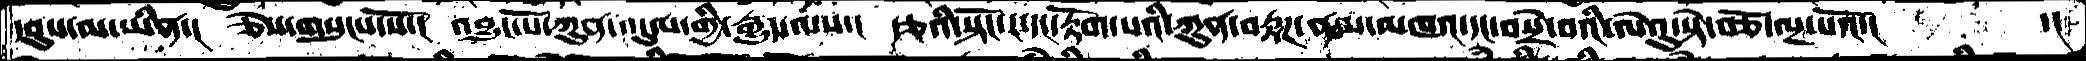དབུས་མ་ཡིན་།  ཅེས་གསུངས་སོ་།  འབྱུང་པོ་ཀུན་འདུལ་གྱི་རྒྱུད་ལས་།  རྩའི་སྟོང་ར་དང་རྟོག་པའི་ཀུན་བརྟཌ་ནམ་མཁའ་དང་བསྲེ་བའི་ལེའུ་སྟེ་བཅོ་ལྔ་པའོ་།      ་།
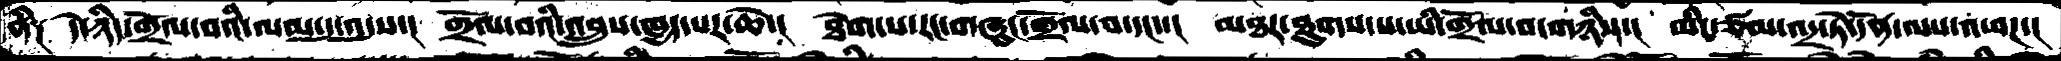ནི༑  དེ་ཉིད་གྲོལ་བའི་ལམ་དུ་འདུས་།  གྲོལ་བའི་འབྲུས་ཁྱད་པར་ཆེ་།  ཐེག་པ་རང་གཞུང་གྲོལ་བ་དང་་།  མཐར་ཐུགས་པ་ཡི་གྲོལ་བ་གཉིས་།  མིང་ཙམ་འདྲ་ཏེ་དོན་ལས་འཕཌ་།
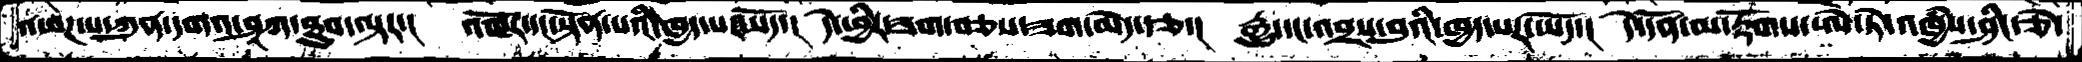འཕཌ་པ་ཀུན་དགའ་ཤཱཀ་ཐུབ་ལྟར་།  འཁོར་དང་སྟོན་པའི་ཁྱད་པར་ཡོད་།  དེ་ཕྱིར་ཟག་བཅས་ཟག་མེད་རྩ་།  རྒྱུ་དང་འབྲས་བུའི་ཁྱད་པར་ཡོད་།  དེ་དོན་མ་རྟོགས་ཨེ་ཏེ་འཁྱིས་ཤིང་ཅེ་
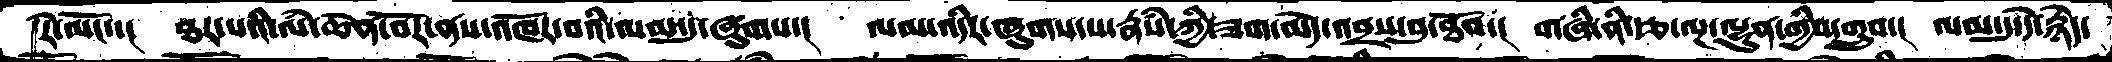རེ་མོང་་། ཐར་པའི་ལཾ་ཆེན་བོར་ནས་འཁོར་བའི་ལམ་དུ་ཞུགས་།   ལམ་འདིར་ཞུགས་པ་རྣཾས་ཀྱི་ཟག་མེད་འབྲས་བུ་ཐོབ་།  གཞི་ནི་རྩ་ལྔ་ལྷུན་གིས་གྲུབ་།  ལམ་དུ་དེ་རྙེད་
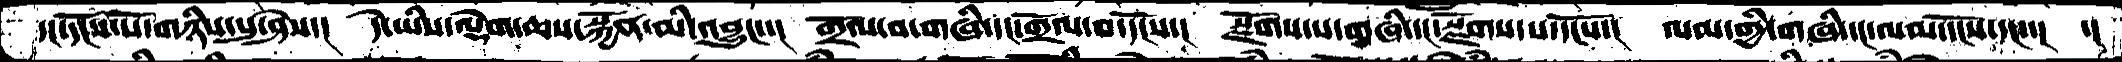དང་དངོས་པོ་གཉིས་སུ་ཤེས་།  དེ་ཡིས་ལྡེག་ཆས་སྐྱོན་མི་འབྱུང་་།  གྲོལ་བ་གཞི་དང་གྲོལ་བ་དངོས་།  སྫོགས་པ་གཞི་དང་སྫོགས་པ་དངོས་།  ལམ་གྱི་གཞི་དང་ལམ་དངོས་དང་་། ་།
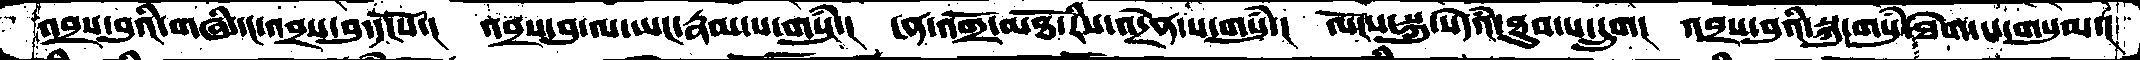འབྲས་བུའི་གཞི་དང་འབྲས་བུ་དངོས་།  འབྲས་བུ་ལ་ཡང་རྣམ་པ་གསུཾ་།  ངན་འགྲོ་མཐོ་རིས་འདྲེན་པ་གསུཾ་།  ལོངས་སྐུ་སེཾདའ་ཐུབ་པ་དྲུག།  འབྲས་བུའི་སྐུ་གསུཾ་ཐེག་པ་གསུམ་།
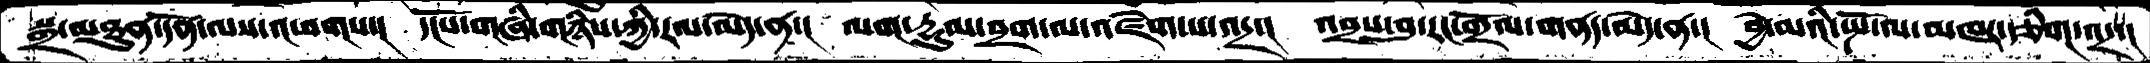སྒྲ་མཐུན་དོན་ལས་འཕགས་།  དངོས་གཞི་གཉིས་ཀྱི་རལ་མེད་ན་།  ལག་རྡུམ་བྲག་ལ་འཛེག་པ་འདྲ་།  འབྲས་བུ་རང་གྲོལ་གནད་མེད་ན་།  བྱེ་མའི་སྤོ་ལ་མཁར་རྩིག་འདྲ་།
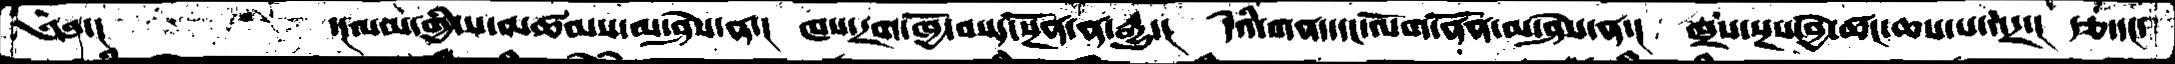༄༅་།     ་།ལམ་གྱི་ས་མཚཾས་མ་ཤེས་ན་།  ཁས་དྲག་ཁྱོ་བསད་སྔོན་ན་རྒྱུ་།  དེའི་གནད་དང་ལོག་ནོན་མ་ཤེས་ན་།  ཁྲས་སྔས་བྱེ་ཚང་ཆས་པ་འདྲ་།  རྩ་དང་
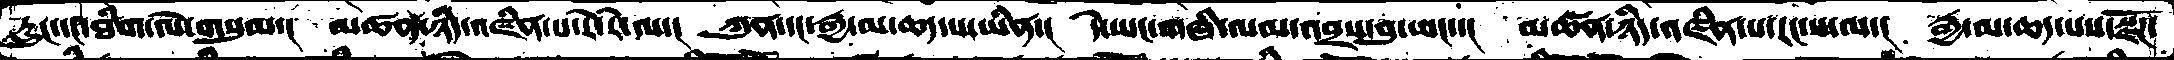རླུང་དང་ཐིག་ལེ་གསུམ་།  མཚན་ཉིད་འཛིན་པ་རེ་རེ་ལ་།  ཀུན་དང་རྒྱ་མ་ཆད་པ་ཡིན་།  དེ་ཡང་གཞི་ལམ་འབྲས་བུ་ཡང་་།  མཚན་ཉིད་འཛིན་པ་རང་ས་ལ་།  རྒྱ་མ་ཆད་པས་སྫོཌ་
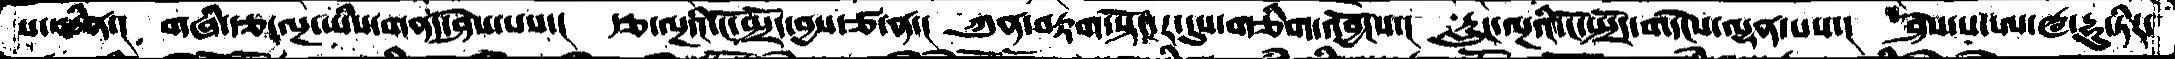པ་ཡིན་།  གཞི་རྩ་ལྔ་ཡིས་གནད་ཤེས་པས་།  རྩ་ལྔའི་ངོ་སྤྲོད་བྱས་ཙ་ན་།  ཀུན་བརྟག་སྟོང་ར་དུས་གཅིག་འབྱོངས་།  རླུང་ལྔའི་ངོ་སྤྲོད་གདེངས་ལྡན་པས་།  ཤེས་པ་ཨ་ཝ་དྷུ་ཏིར་
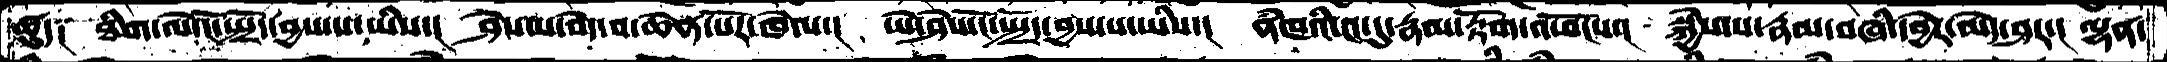ཚུད༑   ཐིག་ལེ་ངོ་སྤྲོད་བྱས་པ་ཡིས་།  ཤེས་པ་བདེ་བ་ཆེན་པོར་ཁེལ་།  ཡེ་ཤེས་ངོ་སྤྲོད་བྱས་པ་ཡིས་།  ནཾཁའི་ངང་དུ་རྣམ་རྟོག་འཕོངས་།  སྐྱེ་བས་རྣམ་བཞི་དབྱེར་མེད་ཤར་།  ལྷན་
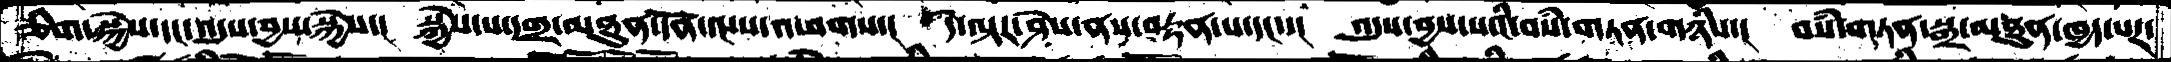ཅིག་སྐྱེས་དང་འདུས་བྱས་སྐྱེས་།  སྐྱེས་པ་དགྲ་མཐུན་དོན་ལས་འཕགས་།  དེ་ལྟར་ཤེས་ནས་བརྟན་པ་དང་་།  འདུས་བྱས་པའི་བསཾ་གཏན་གཉིས་།  བསཾ་གཏན་སྒྲ་མཐུན་ཁྱད་པར་
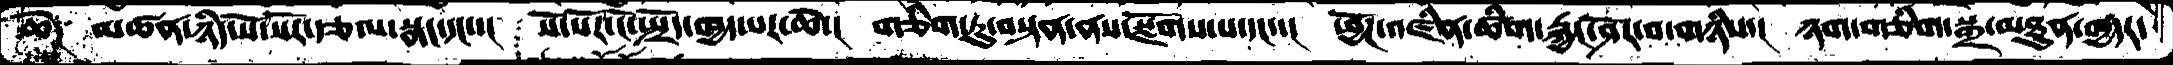ཆེ༑  མཚན་ཉིད་སོ་སོར་རྩལ་སྣང་དང་་།  སོ་སོར་ངོ་སྤྲོད་ཁྱད་པར་ཆེ་།  གཅིག་ཏུ་བསྟན་ནས་སྫོགས་པ་དང་་།  ཕྱོཌ་འཛིན་ཚིག་རྐྱང་ཤོར་བ་གཉིས་།  ཉག་གཅིག་སྒྲ་མཐུན་ཁྱདར་
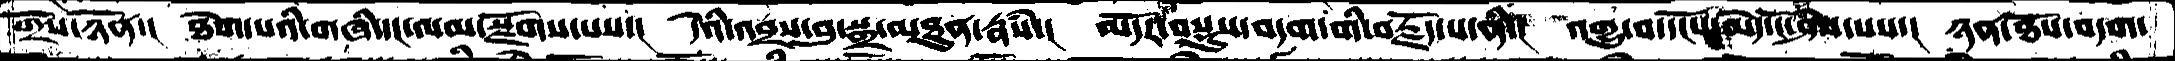གྲོས་ཉོན་།  ཐེག་པའི་གཞི་དང་ལམ་སྫོགས་པས་།  དེའི་འབྲས་བུ་སྒྲ་མཐུན་རྣཾས་།  མདོར་བསྡུས་བདག་གི་བརྗོད་པ་ནི་།  འགྱུ་བ་དངོས་མེད་ངོ་ཤེས་པས་།  ཉན་ཐོས་བདག་
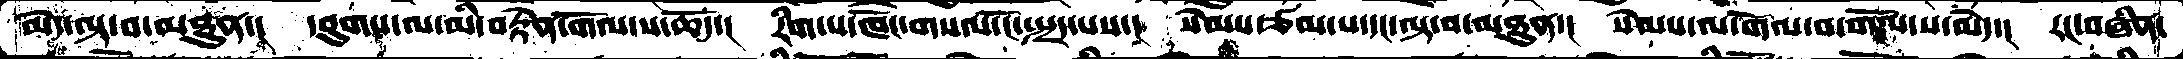མེད་ལྟ་བ་མཐུན་།  དབུགས་ལ་མི་བརྟེན་གོལ་ས་ཆོད་།   རིག་པ་ཁོང་གསལ་ངོ་སྤྲད་པས་།  སེམས་ཙམ་པ་དང་ལྟ་བ་མཐུན་།  སེམས་ལ་གོལ་བ་གོལ་ས་མེད་།  རང་བཞིན་
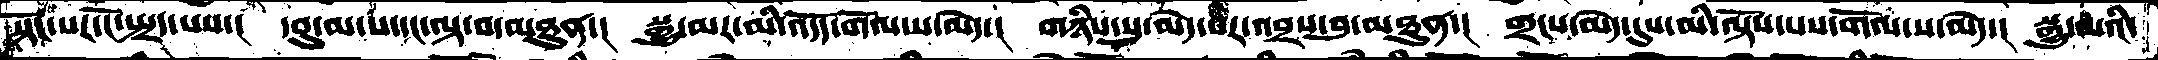སྟོང་པར་ངོ་སྤྲད་པས་།  དབུ་མ་པ་དང་ལྟ་བ་མཐུན་།  སྒྱུ་མར་མི་འདོད་གོལ་ས་མེད་།  གཉིས་སུ་མེད་པར་འབྲས་བུ་མཐུན་།  གྲངས་མེད་དུས་མི་ལྟོས་པས་གོལ་ས་མེད་།  སྒྱུ་མའི་
